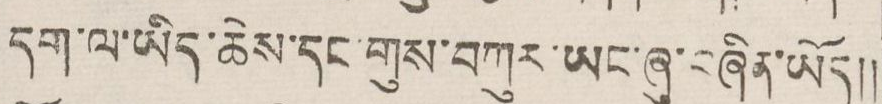དག་ལ་ཡིད་ཆེས་དང་གུས་བཀུར་ཡང་ཞུ་བཞིན་ཡོད།།
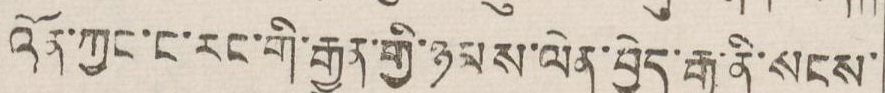འོན་ཀྱང་ང་རང་གི་རྒྱུན་གྱི་ཉམས་ལེན་བྱེད་རྒྱུ་ནི་སངས་
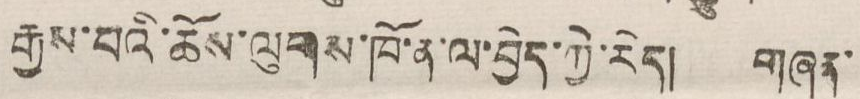རྒྱས་པའི་ཆོས་ལུགས་ཁོ་ན་བྱེད་ཀྱི་རེད། གཞན་
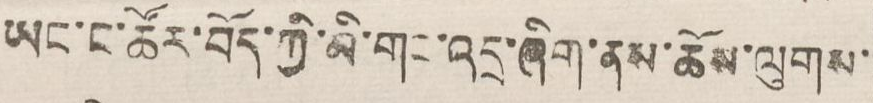ཡང་ང་ཚོར་བོད་ཀྱི་མི་གང་འདྲ་ཞིག་ནས་ཆོས་ལུགས་
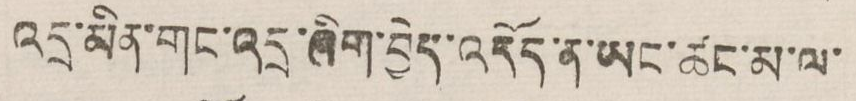འདྲ་མིན་གང་འདྲ་ཞིག་བྱེད་འདོད་ན་ཡང་ཚང་མ་ལ་
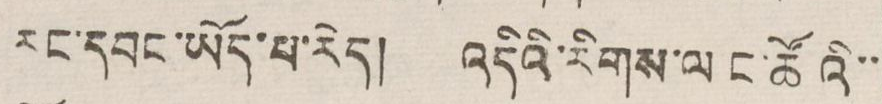རང་དབང་ཡོད་པ་རེད། འདིའི་རིགས་ལ ང་ཚོའི་་
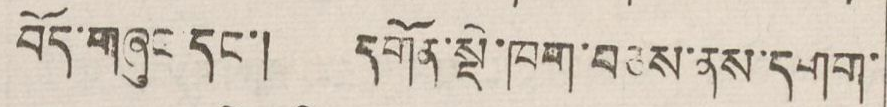བོད་གཞུང དང་། དགོན་སྡེ་ཁག་བཅས་ནས་དགག་
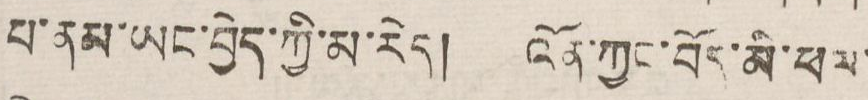པ་ནམ་ཡང་བྱེད་ཀྱི་མ་རེད། འོན་ཀྱང་བོད་མི་ཕལ་
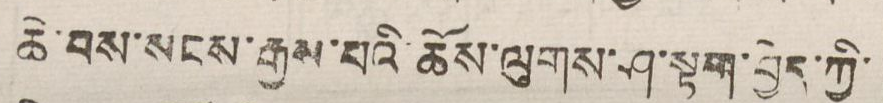ཆེ་བས་སངས་རྒྱས་པའི་ཆོས་ལུགས་ཤ་སྟག་བྱེད་ཀྱི་
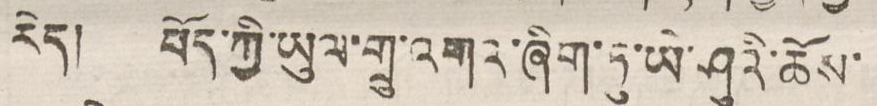རེད། བོད་ཀྱི་ཡུལ་གྲུ་འགའ་ཞིག་ཏུ་ཡེ་ཤུའི་ཆོས་
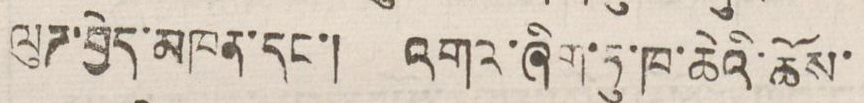ལུཊ་བྱེད་མཁན་དང་། འགའ་ཞིག་ཏུ་ཁ་ཆེའི་ཆོས་
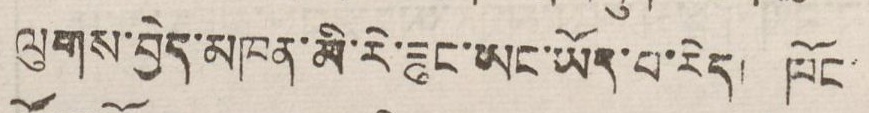ལུགས་བྱེད་མཁན་མི་རེ་ཟུང་ཡང་ཡོད་པ་རེད། ཁོང་
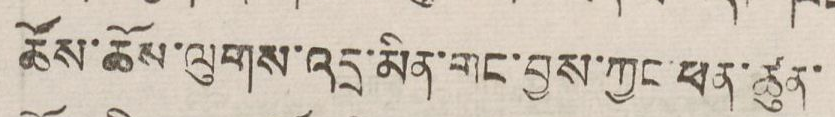ཚོས་ཆོས་ལུགས་འདྲ་མིན་གང་བྱས་ཀྱང་ཕན་ཚུན་
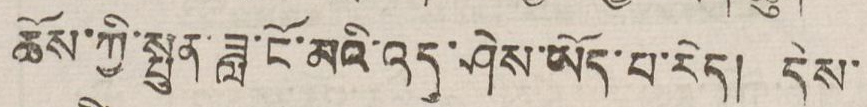ཆོས་ཀྱི་སྤུན་ཟླ་ངོ་མའི་འདུ་ཤེས་ཡོད་པ་རེད། དེས་
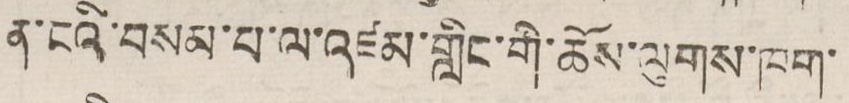ན་ངའི་བསམ་པ་ལ་འཛམ་གླིང་གི་ཆོས་ལུགས་ཁག་
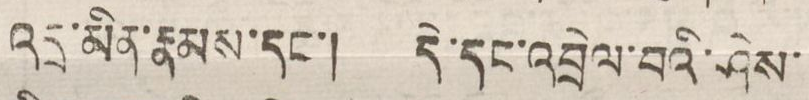འདྲ་མིན་རྣམས་དང་། དེ་དང་འབྲེལ་བའི་ཤེས་
